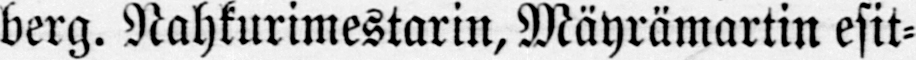berg. Nahkurimestarin, Mäyrämartin esit-
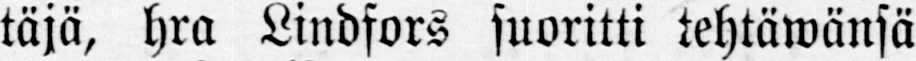täjä, hra Lindfors suoritti tehtäwänsä
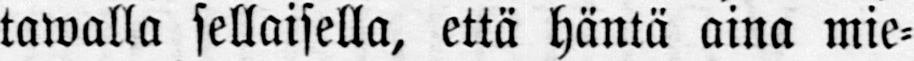tawalla sellaisella, että häntä aina mie-
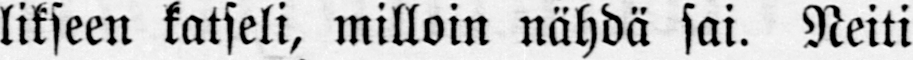likseen katseli, milloin nähdä sai. Neiti
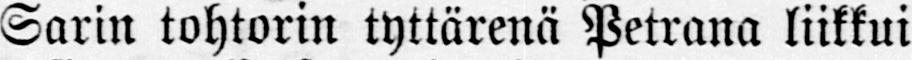Sarin tohtorin tyttärenä Petrana liikkui
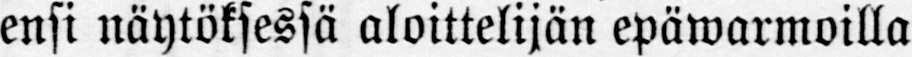ensi näytöksessä aloittelijän epäwarmoilla
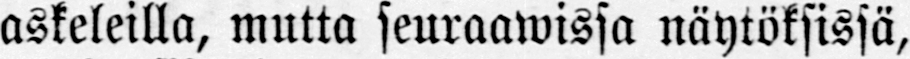askeleilla, mutta seuraawissa näytöksissä,
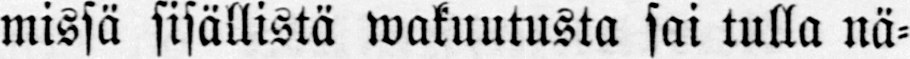missä sisällistä wakuutusta sai tulla nä-
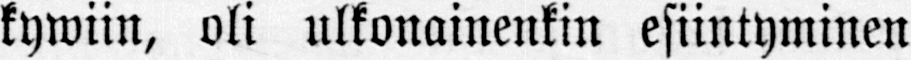kywiin, oli ulkonainenkin esiintyminen
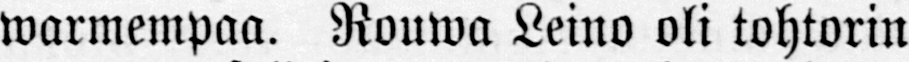warmempaa. Rouwa Leino oli tohtorin
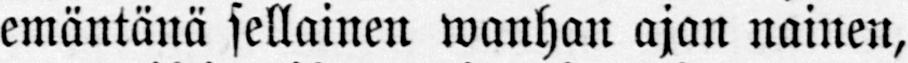emäntänä sellainen wanhan ajan nainen,
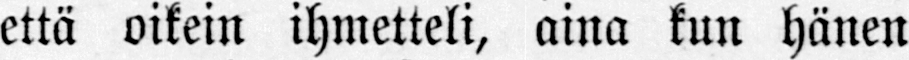että oikein ihmetteli, aina kun hänen
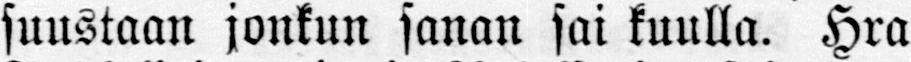suustaan jonkun sanan sai kuulla. Hra
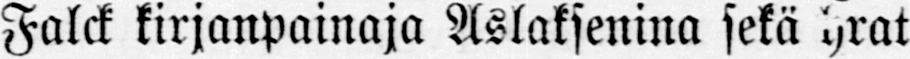Falck kirjanpainaja Aslaksenina sekä hrat
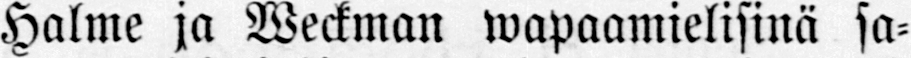Halme ja Weckman wapaamielisinä sa-
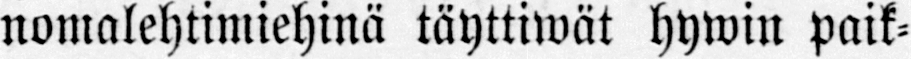nomalehtimiehinä täyttiwät hywin paik-
